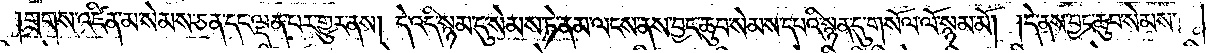།གྲགས་འཛིན་མ་སེམས་ཅན་དང་ལྡན་པར་གྱུར་ནས། དེ་འདི་སྙམ་དུ་སེམས་ཏེ་ནམ་ལངས་ནས་བྱང་ཆུབ་སེམས་དཔའི་སྙན་དུ་གསོལ་ལོ་སྙམ་མོ། །དེ་ནས་བྱང་ཆུབ་སེམས་
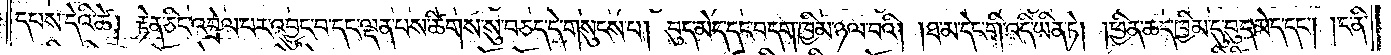དཔས་དེའི་ཚེ། རྟེན་ཅིང་འབྲེལ་པར་འབྱུང་བ་དང་ལྡན་པས་ཚིགས་སུ་བཅད་དེ་གསུངས་པ། བུད་མེད་དང་བདག་ཁྱིམ་ཉལ་བའི། །ཐ་མ་དེང་གི་འདི་ཡིན་ཏེ། །ཕྱིན་ཆད་ཁྱིམ་དུ་བུད་མེད་དང༌། །ང་ནི་
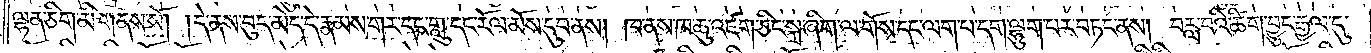ལྷན་ཅིག་མི་གནས་སོ། །དེ་ནས་བུད་མེད་དེ་རྣམས་གར་དང་གླུ་དང་རོལ་མོས་དུབ་ནས། ཁ་ནས་ཁ་ཆུ་འཛག་ཅིང་སྐྲ་ཞིག་ལ་གོས་དང་ལག་པ་དག་ལྷུག་པར་བཏང་ནས། བརླ་བའི་ཚིག་བྱུང་རྒྱལ་དུ་
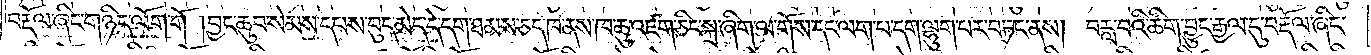བརྡོལ་ཞིང་གཉིད་ལོག་གོ །བྱང་ཆུབ་སེམས་དཔས་བུད་མེད་དེ་དག་ཐམས་ཅད་ཁ་ནས་ཁ་ཆུ་འཛག་ཅིང་སྐྲ་ཞིག་ལ་གོས་དང་ལག་པ་དག་ལྷུག་པར་བཏང་ནས། བརླ་བའི་ཚིག་བྱུང་རྒྱལ་དུ་བརྡོལ་ཞིང་
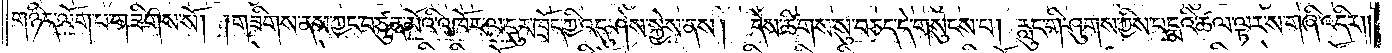གཉིད་ལོག་པ་གཟིགས་སོ། །གཟིགས་ནས་ཀྱང་བཙུན་མོའི་འཁོར་ལ་དུར་ཁྲོད་ཀྱི་འདུ་ཤེས་སྐྱེས་ནས། དེས་ཚིགས་སུ་བཅད་དེ་གསུངས་པ། རླུང་གི་ཤུགས་ཀྱིས་པདྨའི་ཚལ་ལྟར་ས་གཞི་འདིར༎
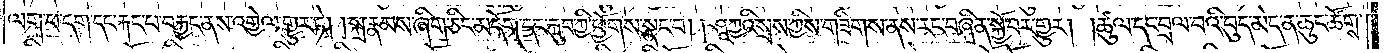ལག་པ་དག་དང་རྐང་པ་བརྐྱང་ནས་འགྱེལ་གྱུར་ཏེ། །སྐྲ་རྣམས་ཞིག་ཅིང་མདོག་དང་རྐུབ་ཀྱི་ཕྱོགས་སྣང་བ། །ཤཱཀྱའི་སྲས་ཀྱིས་གཟིགས་ནས་རང་བཞིན་སྐྱོ་བར་གྱུར། །ཚུལ་དང་བྲལ་བའི་བུད་མེད་ན་ཆུང་ཚོགས་
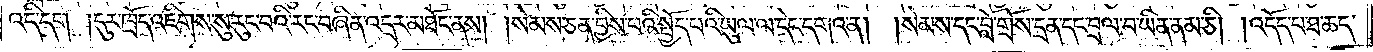འདི་དག །དུར་ཁོར་འཇིགས་སུ་རུང་བའི་རང་བཞིན་འདྲར་མཐོང་ནས། །སེམས་ཅན་བྱིས་པའི་སྤྱོད་པའི་ཡུལ་ལ་དེང་དགའ་ན། །སེམས་དང་བློ་གྲོས་དྲན་དང་བྲལ་བ་ཡིན་ནམ་ཅི། །འདོད་པ་ཐ་ཆད་
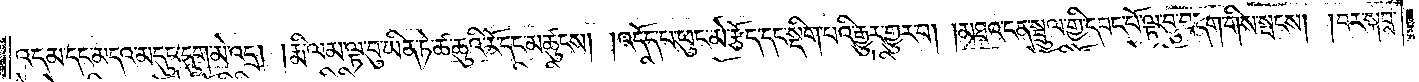འདམ་དང་མདའ་མདུང་དུག་མེ་འདྲ། །རྨི་ལམ་ལྟ་བུ་ཡིན་ཏེ་ཚ་ཆུའི་རོ་དང་མཚུངས། །འདོད་པ་ཕུང་མེ་རྩོད་དང་སྡིག་པའི་རྒྱུར་གྱུར་པ། །མཐའ་ངན་སྦྲུལ་གྱི་དབང་པོ་ལྟ་བུ་བདག་གིས་སྤངས། །བར་སྐབས་
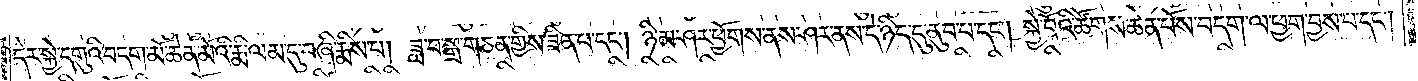དེར་སྐྱེ་དགུའི་བདག་མོ་ཆེན་མོའི་རྨི་ལམ་དུ་བཞི་རྨིས་པ། ཟླ་བ་སྒྲ་གཅན་གྱིས་ཟིན་པ་དང༌། ཉི་མ་ཤར་ཕྱོགས་ནས་ཤར་ནས་དེ་ཉིད་དུ་ནུབ་པ་དང༌། སྐྱེ་བོའི་ཚོགས་ཆེན་པོས་བདག་ལ་ཕྱག་བྱས་པ་དང༌།
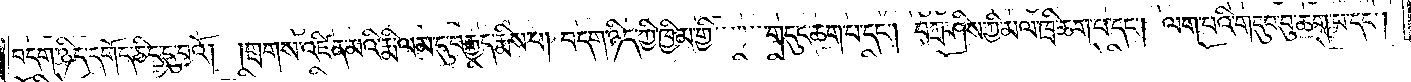བདག་ཉིད་དགོད་ཅིང་དུ་བའོ། །གྲགས་འཛིན་མའི་རྨི་ལམ་དུ་བརྒྱད་རྨིས་པ། བདག་ཉིད་ཀྱི་ཁྱིམ་གྱི་གདུང་ཆག་པ་དང༌། བཀྲ་ཤིས་ཀྱི་མལ་ཁྲི་ཆག་པ་དང༌། ལག་པའི་གདུབ་བུ་ཆག་པ་དང༌།
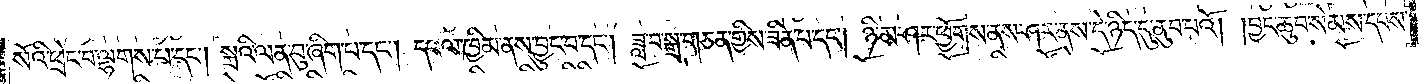སོའི་ཕྲེང་བ་ལྷགས་པ་དང༌། སྐྲའི་ལན་བུ་ཞིག་པ་དང༌། དཔལ་ཁྱིམ་ནས་བྱུང་བ་དང༌། ཟླ་བ་སྒྲ་གཅན་གྱིས་ཟིན་པ་དང༌། ཉི་མ་ཤར་ཕྱོགས་ནས་ཤར་ནས་དེ་ཉིད་དུ་ནུབ་པའོ། །བྱང་ཆུབ་སེམས་དཔས་
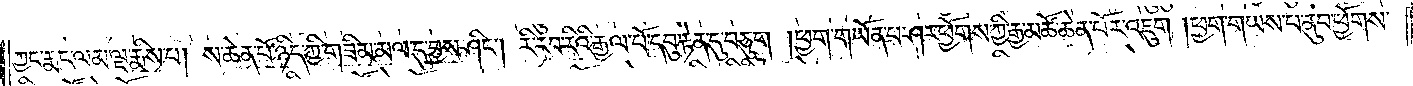ཀྱང་རྨང་ལམ་ལྔ་རྨིས་པ། ས་ཆེན་པོ་ཉིད་ཀྱི་གཟིམ་མལ་དུ་བྱས་ཤིང༌། རི་རབ་རིའི་རྒྱལ་པོ་དབུ་རྟེན་དུ་བཅུག །ཕྱག་གཡོན་པ་ཤར་ཕྱོགས་ཀྱི་རྒྱ་མཚོ་ཆེན་པོར་འཇུག །ཕྱག་གཡས་པ་ནུབ་ཕྱོགས་
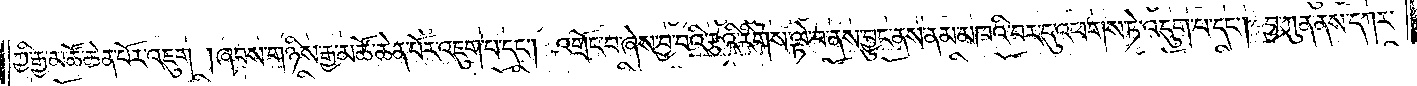ཀྱི་རྒྱ་མཚོ་ཆེན་པོར་འཇུག །ཞབས་གཉིས་རྒྱ་མཚོ་ཆེན་པོར་འཇུག་པ་དང༌། འགྲོང་བ་ཞེས་བྱ་བའི་རྩའི་རིགས་ལྟེ་བ་ནས་བྱུང་ནས་ནམ་མཁའི་བར་དུ་འཕགས་ཏེ་འདུག་པ་དང༌། བྱ་ཀུན་ནས་དཀར་
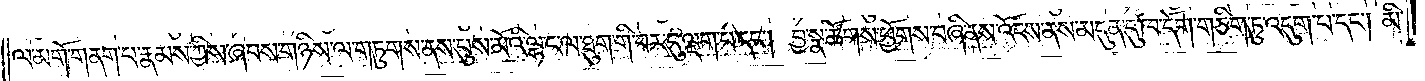ལ་མགོ་གནག་པ་རྣམས་ཀྱིས་ཞབས་གཉིས་ལ་གཏུགས་ནས་པུས་མོའི་ལྷ་ང་ལ་ཐུག་གི་བར་དུ་ལྡག་པ་དང༌། བྱ་སྣ་ཚོགས་ཕྱོགས་བཞི་ནས་འོངས་ནས་མདུན་དུ་ཁ་དོག་གཅིག་ཏུ་འདུག་པ་དང༌། མི་
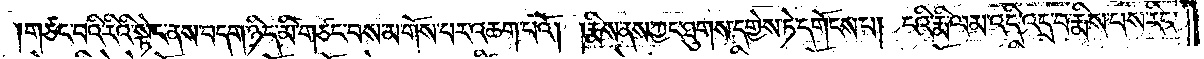།གཙང་བའི་རིའི་སྟེང་ནས་བདག་ཉིད་མི་གཙང་བས་མ་གོས་པར་འཆག་པའོ། །རྨིས་ནས་ཀྱང་ཐུགས་དགྱེས་ཏེ་དགོངས་པ། ངའི་རྨི་ལམ་འདི་འདྲ་བ་རྨིས་པས་རིང་
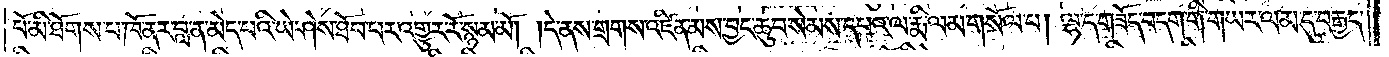པོ་མི་ཐོགས་པ་ཁོ་ནར་བླ་ན་མེད་པའི་ཡེ་ཤེས་ཐོབ་པར་འགྱུར་རོ་སྙམ་མོ། །དེ་ནས་གྲགས་འཛིན་མས་བྱང་ཆུབ་སེམས་དཔའ་ལ་རྨི་ལམ་གསོལ་པ། ལྷ་ད་གཟོད་བདག་གི་གཡར་ལམ་དུ་བརྒྱད་
